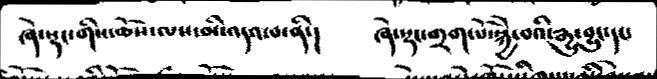ཞེ་སྡང་གིས་ཆོས་ལས་མི་འདའ་བ་ནི་།  ཞེ་སྡང་གྲག་པོ་སྐྱེེ་བའི་རྒྱུ་བྱུང་དང་
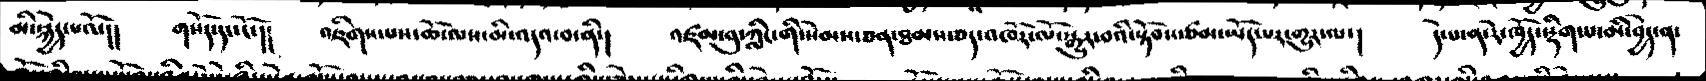མི་སྐྱེད་པའོ་།།  གསོད་དང་ངོ་།།  འཇིགས་པས་ཆོ་ལས་མི་འདའ་བ་ནི་།  འཛམ་བུ་ཀླིང་གི་སེམས་ཅན་ཐམས་ཅད་འཁོར་ལོ་སྒྱུར་བའི་སྟོབས་ཙམ་ཡོད་པར་གྱུར་ལ་།  དེ་པ་ན་རེ་ཁྱོད་སྡིག་པ་མི་བྱེད་ན་
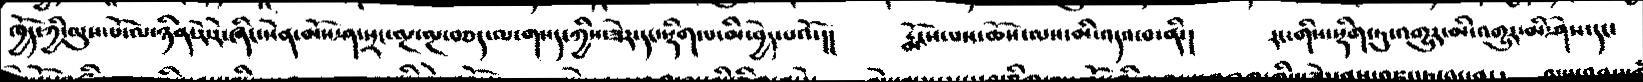ཁྱོད་ཀྱི་ལུས་པོ་ལ་ཉིན་རེ་རེ་ཞིང་སེན་མོས་ཤ་སྲང་ལྔ་ལྔ་བཅད་ལ་གསད་ཀྱིས་ཟེར་དང་སྡིག་པ་མི་བྱེད་པའོ་།།  རྨོངས་པས་ཆོས་ལས་མི་འདའ་བ་ནི་།  རང་གིས་སྡིག་ཏུ་འགྱུར་མི་འགྱུར་མི་ཤེས་དང་
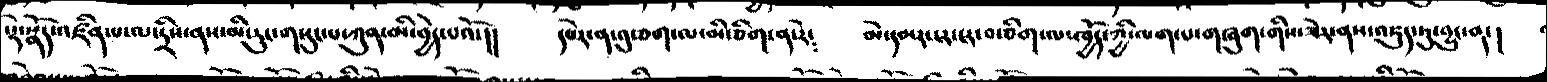སྡེ་སྣོད་འཛིན་པ་ལ་དྲིས་ནས་མི་རུང་གསུང་པ་ཀྱུན་མི་བྱེད་པའོ་།།  དཔེར་ན་འུ་ཅག་ལ་མི་ཅིག་ན་རེ༴  མེ་དམར་ངར་ངར་བ་ཅིག་ལ་ཁྱོད་ཀྱི་ལག་པ་གཞུག་གིས་ཟེར་ནས་འཇུད་ཏུ་བྱུང་ན་།
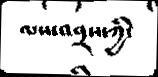ལས་འབྲས་ཀྱི་
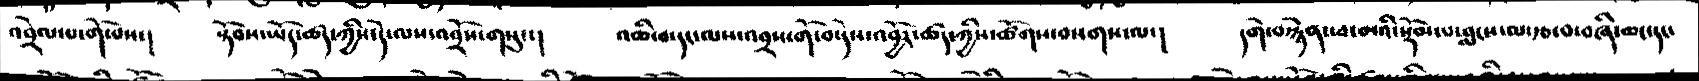འབྲེལ་པ་གོ་པས་།   སྟོབས་ཡོད་ཚད་ཀྱིས་དེ་ལས་འབྲོས་གསུང་།  འཆི་བ་དང་ལས་འབྲས་གོ་བ་དེས་འབྱོར་ཚད་ཀྱིས་ཚོགས་བསགས་ལ་། དགེ་བསྙེན་ཕ་མའི་སྡོམ་པ་བླངས་ལ་རྩ་བ་བཞི་ཆང་དང་
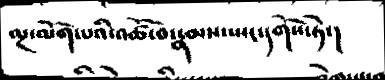ལྔ་མོག་པའི་འཚོ་བ་རྣམས་སྤང་དགོས་ཏེ་།
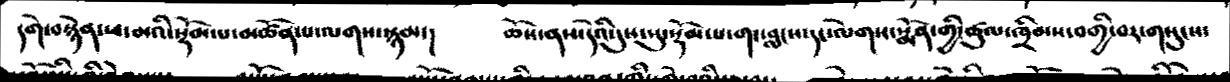དགེ་བསྙེན་ཕ་མའི་སྡོམ་པ་མཚོན་པ་ལགས་སྙམ་།  ཆོས་ནས་དེའི་དུས་སུ་སྡོམ་པ་གང་བླངས་དང་ལེགས་སྨོན་གྱི་ཚུལ་ཁྲིམས་བགྱི་བར་གསུངས་
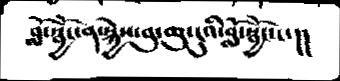བློ་སྦྱོང་ན་སྐྱེས་བུ་ཆུ་ངུའི་བློ་སྦྱོང་ང་།།
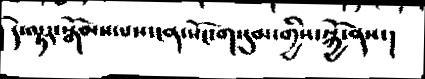དེ་ལྟར་སྒོམས་པས་ངན་སོང་ག་དུམ་གྱིས་སྐྱོ་ནས་།
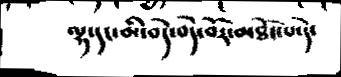ལྷ་དང་མི་བདེ་བདེ་བོར་མཐོང་པ་དེ་
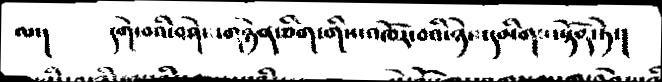ལ་།   དགེ་བའི་བཤེས་གཉེན་ཅིག་གིས་འཁོར་བའི་ཉེས་དམིགས་སྟོན་ཏེ་།
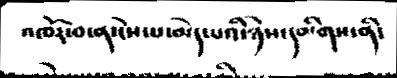འཁོར་བ་ན་ངེས་པ་མེད་པའི་ཉེས་དམིགས་ནི་
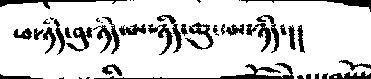ཕ་ཉིད་བུ་ཉིད་མ་ཉིད་ཆུང་མ་ཉིད་།།
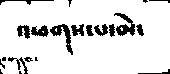འཕགས་པ་མེ་
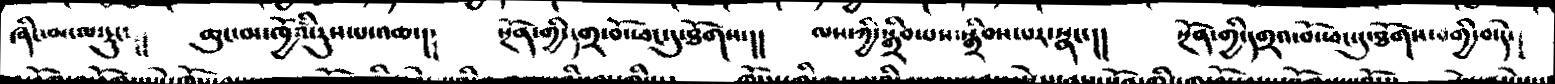ཞིང་མ་ལ་རུང༴༴  ཆུང་མ་ཁྱོའི་རུས་པ་འཆ་།།  སྔོན་གྱི་དགྲ་བོ་ཕང་དུ་ཐོགས་།།  ལས་ཀྱི་སྒྲིབ་པས་སྒྲིབས་པར་སྣང་།།  སྔོན་གྱི་དགྲའ་པོ་ཕང་དུ་ཐོགས་བགྱི་བ་དེ་།
